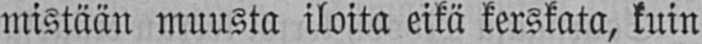mistään muusta iloita eikä kerskata, kuin
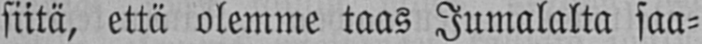siitä, että olemme taas Jumalalta saa-
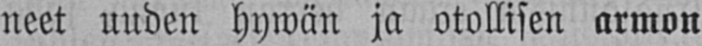neet uuden hywän ja otollisen armon
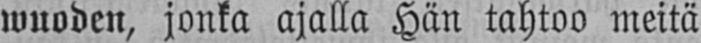wuoden, jonka ajalla Hän tahtoo meitä
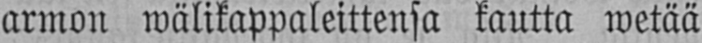armon wälikappaleittensa kautta wetää
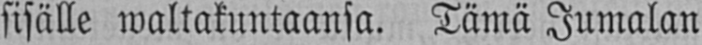sisälle waltakuntaansa. Tämä Jumalan
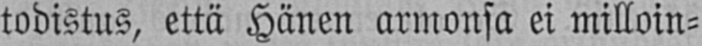todistus, että Hänen armonsa ei milloin-
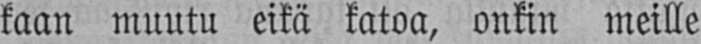kaan muutu eikä katoa, onkin meille
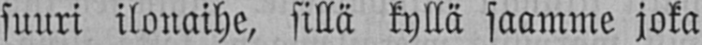suuri ilonaihe, sillä kyllä saamme joka
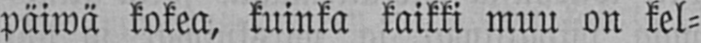päiwä kokea, kuinka kaikki muu on kel-
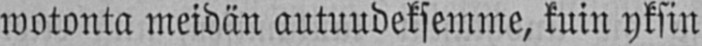wotonta meidän autuudeksemme, kuin yksin
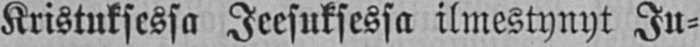Kristuksessa Jeesuksessa ilmestynyt Ju-
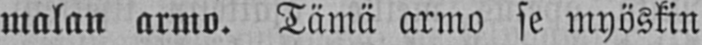malan armo. Tämä armo se myöskin
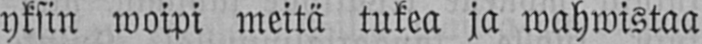yksin woipi meitä tukea ja wahwistaa
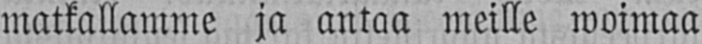matkallamme ja antaa meille woimaa
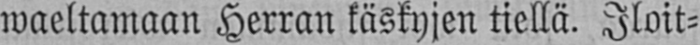waeltamaan Herran käskyjen tiellä. Iloit-
